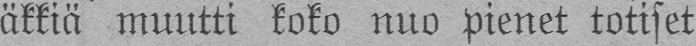äkkiä muutti koko nuo pienet totiset
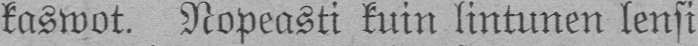kaswot. Nopeasti kuin lintunen lensi
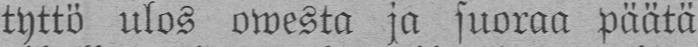tyttö ulos owesta ja suoraa päätä
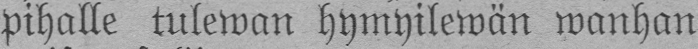pihalle tulewan hymyilewän wanhan
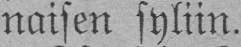naisen syliin.
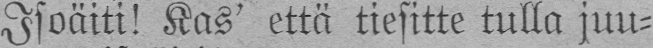Isoäiti! Kas' että tiesitte tulla juu-
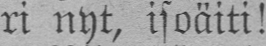ri nyt, isoäiti!
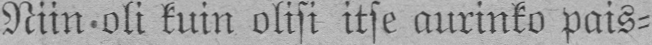Niin oli kuin olisi itse aurinko pais-
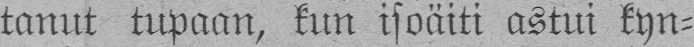tanut tupaan, kun isoäiti astui kyn-
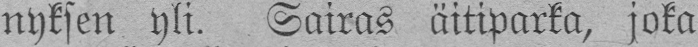nyksen yli. Sairas äitiparka, joka
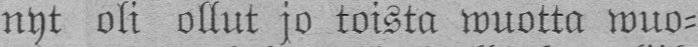nyt oli ollut jo toista wuotta wuo-
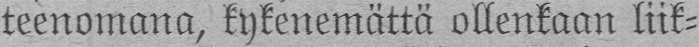teenomana, kykenemättä ollenkaan liik-
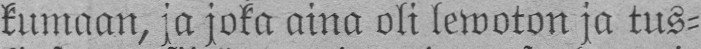kumaan, ja joka aina oli lewoton ja tus-
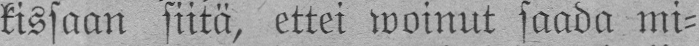kissaan siitä, ettei woinut saada mi-
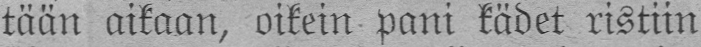tään aikaan, oikein pani kädet ristiin
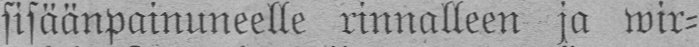sisäänpainuneelle rinnalleen ja wir-
